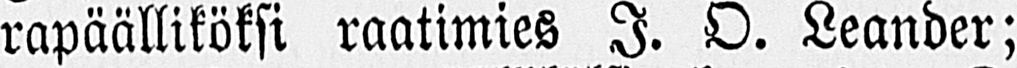rapäälliköksi raatimies I. O. Leander;
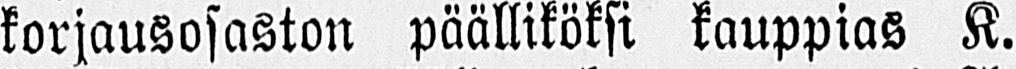korjausosaston päälliköksi kauppias K.
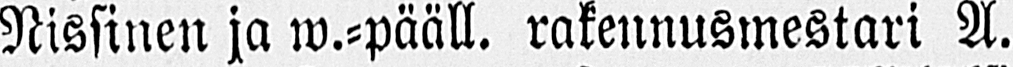Nissinen ja w.-pääll. rakennusmestari A.
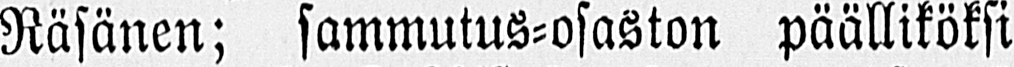Räsänen; sammutus-osaston päälliköksi
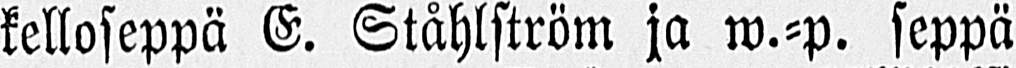kelloseppä E. Ståhlström ja w.-p. seppä
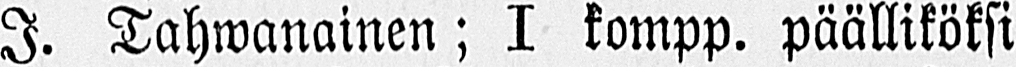I. Tahmanainen; I kompp. päälliköksi
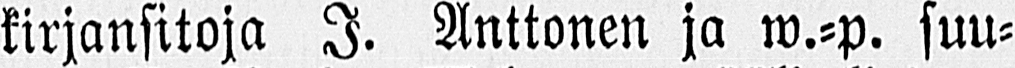kirjansitoja I. Anttonen ja w.-p. suu-
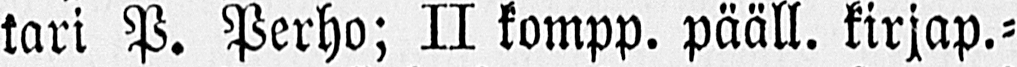tari P. Perho; II kompp. pääll. kirjap.-
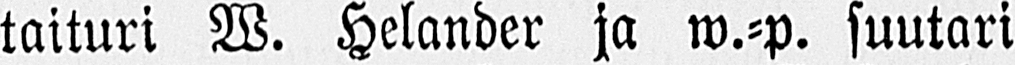taituri W. Helander ja w.-p. suutari
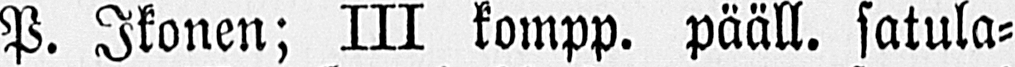P. Ikonen; III kompp. pääll. satula-
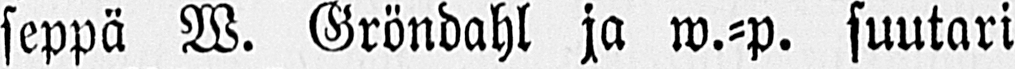seppä W. Gröndahl ja w.-p. suutari
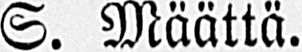S. Määttä.
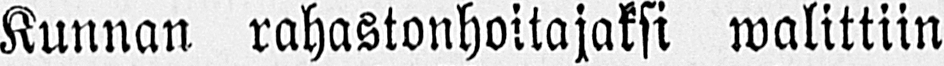Kunnan rahastonhoitajaksi walittiin
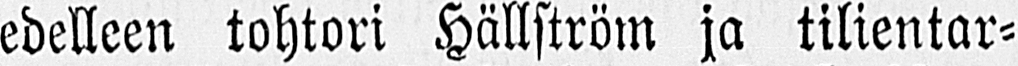edelleen tohtori Hällström ja tilientar-
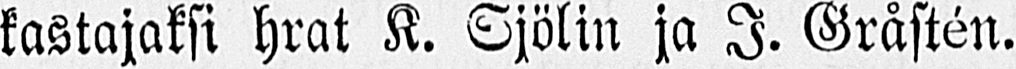kastajaksi hrat K. Sjölin ja I. Gråstén.
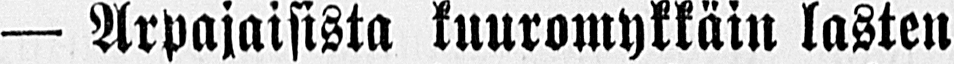— Arpajaisista kuuromykkäin lasten
